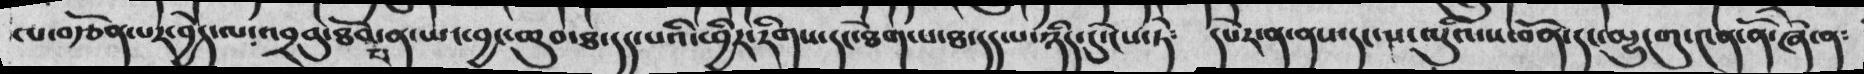ལ་བརྩོན་པར་བྱེད་ལ་འབྲབུ་ཐོབ་ན་ཡང་བྱང་ཆུབ་ཐ་དད་པའི་ཕྱིར་རིགས་དང་ཐེག་པ་ཐ་དད་པ་ཉིད་དུ་ངེས་ཏེ༴  དཔེར་ན་ནས་དང་ས་ལུའི་ས་བོན་དང་མྱུ་གུ་༤ན་ནོ་ཞེ་ན༴
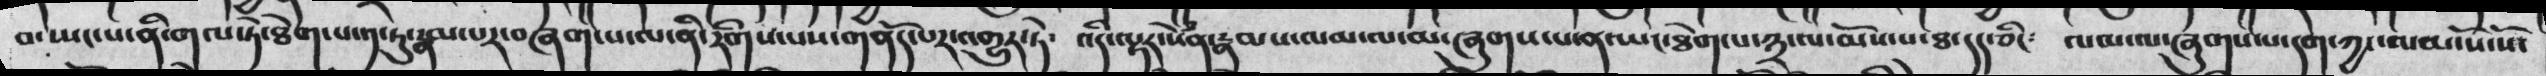བ་ཡང་པ་ནི་གལ་ཏེ་ཐེག་པ་༡་ཏུ་རྣམ་པར་བཞག་པ་ལ་ནི་རིགས་པས་གནོད་པར་འགྱུར་ཏེ༴  འདི་ལྟར་སེཾན་རྣམས་ལམ་ལ་མ་ཞུགས་པ་ན་ཡང་ཐེག་པ་༣་ལ་མོས་པ་ཐ་དད་ཅིང༴  ལམ་ལ་ཞུགས་པ་དག་ཀྱང་ལམ་སོ་སོ་
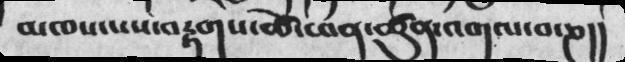མཁས་པས་བརྟག་ཚེ་ཕན་ཚུན་འགལ་བ་ཎ།།
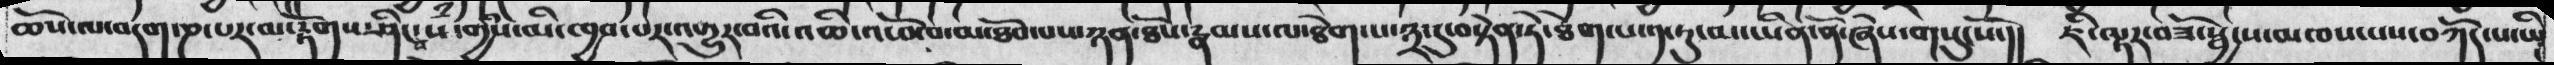ཆོས་ལ་བདག་ཎ་པར་མ་རྟོགས་ཤིང་བསཾ་གྱིས་མི་ཁྱབ་པར་འགྱུར་བའི་འཆི་འཕོ་བ་མ་ཐོབ་པས་ཉན་ཐོས་རྣམས་ལ་ཐེག་པ་༣་དུ་བསྟེན་ཏེ་ཐེག་པ་༡་ཏུ་མ་ཡིན་ནོ་ཞེས་གསུང་སོ་།།   ཇི་ལྟར་བཟོ་སྦྱངས་མཁས་པས་བཀོད་པ་ཡི་
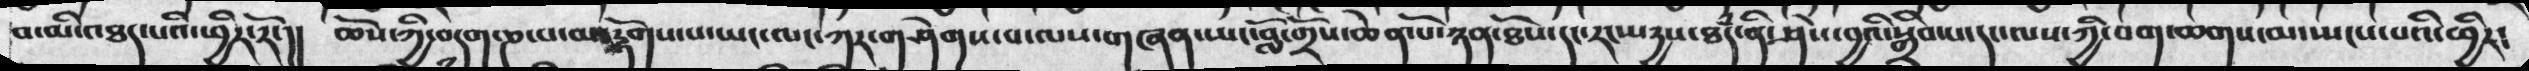བ་མི་འཐད་པའི་ཕྱིར་རོ་།། ཆོས་ཀྱི་བདག་ཎ་པ་མ་རྟོགས་པ་ཡང་ལང་ཀར་གཤེགས་པ་ལས་གཞན་ཡང་བློ་གྲོས་ཆེན་པོ་ཉན་ཐོས་དང་རང་སརྱས་ཐཾད་ནི་ཤེས་བྱའི་སྒྲིབ་པ་དང་ལས་ཀྱི་བག་ཆགས་མ་སྤངས་པའི་ཕྱིར༴
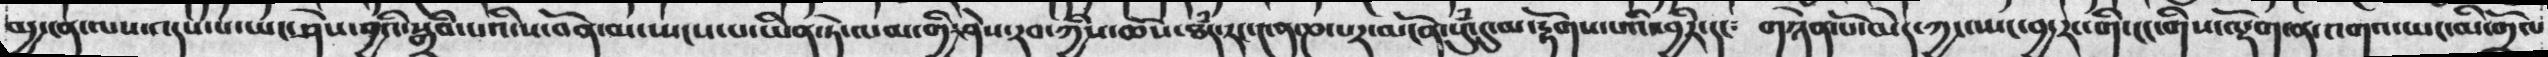མྱ་ངན་ལས་འདས་པ་ཡང་ཤེས་བྱའི་སྒྲིབ་པའི་ས་བོན་མ་སྤངས་པ་ཡིན་ཏེ་ལམ་གྱི་ཤེས་རབ་ཀྱིས་ཆོས་ཐཾད་རང་༤ན་ཎ་པར་མངོན་སུཾ་དུ་རྟོགས་པའི་ཕྱིར་དང༴  གཉེན་པོ་མེད་ཀྱང་སྤང་བྱ་རང་གི་ངང་གིས་ལྡོག་ན་འགའ་ཡང་མི་གྲོལ
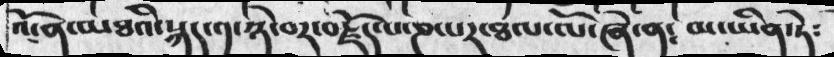འོ་ན་མཐའི་སྐད་༡་ཉེ་བར་བརྗོད་པ་ཎ་པར་ཐལ་ལོ་ཞེ་ན༴ མ་ཡིན་ཏེ༴
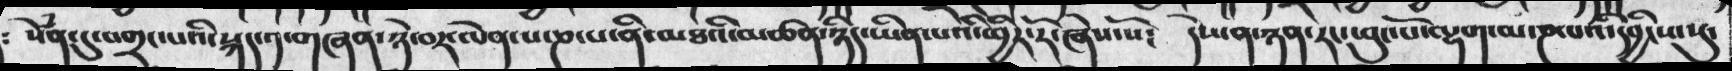༴ སེཾན་དུ་བགྲང་པའི་སྐད་༡་གཞན་ཉེ་བར་ལེན་པ་ཎ་པ་ནི་མཐའི་མཚན་ཉིད་ཡིན་པའི་ཕྱིར་རོ་ཞེས་སོ༴  དེས་ན་ཉན་རང་ཕུང་པོ་ལྷག་མ་ཎ་པའི་དབྱིངས་སུ་
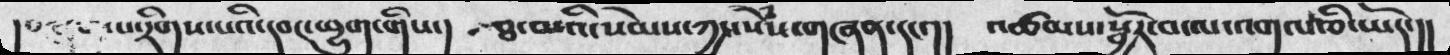།བཞག་པ་རིགས་པའི་དབང་ཕྱུག་གིས་།   ཐ་མའི་སེམས་ཀྱང་སེཾས་གཞན་དང་།།    འཚམས་སྦྱོར་བ་ལ་འགལ་ཅི་ཡོད་།།
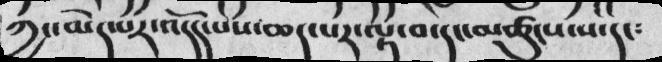ཀྱང་མེད་པར་འདོད་པས་ཆད་པར་ལྟ་བ་དང་མཚུངས་པ་དང༴
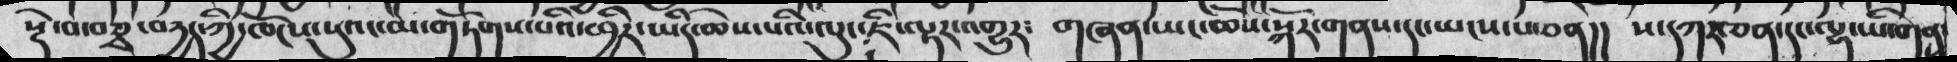སྡེ་བ་བཅྭ་བརྱད་ཀྱི་ཁོངས་སུའང་མ་གཏོགས་པའི་ཕྱིར་ཡིད་ཆེས་པའི་ལུང་ཇི་ལྟར་འགྱུར༴  གཞན་ཡང་ཆོས་སྐོར་གནས་དང་ཡངས་པ་ཅན།།  ས་དཀར་ཅན་དང་ལྷ་ཡི་གན
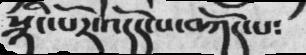སྙིང་པོར་འདོད་པ་བཀོད་པ༴
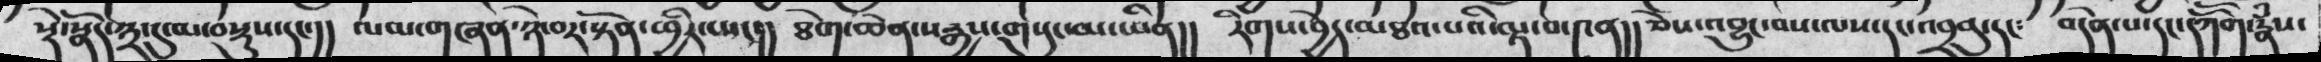སྡེ་སྣོད་༣་དུ་མ་བསྟུས་དང་།།  ལམ་གཞན་ཉེ་བར་སྟོན་ཕྱིར་ཡང་།། ཐེག་ཆེན་སརྒྱས་གསུང་མ་ཡིན།།  རིགས་བྱེད་མཐའ་པའི་ལྟ་བ་༤ན།། ཅེས་འབྱུང་བས་ལས་དང་འབྲབུ་དང་  བདེན་པ་དང་དདཀོོག་རྣཾས་
